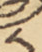༨
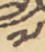༧
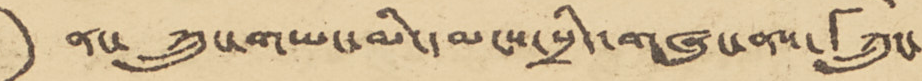ནང་ ཀྲུང་གཡང་མི་དམངས་སྲིད་གཞུང་ནས་「ཀྲུང་
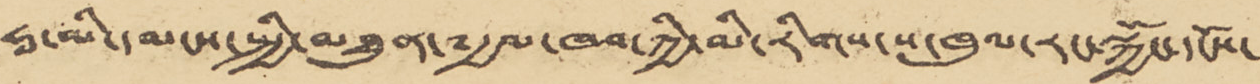ཧྭ་མི་དམངས་སྤྱི་མཐུན་༸རྒྱལ་ཁབ་ཀྱི་མི་རིགས་ས་ཁུལ་རང་སྐྱོང་དངོས་
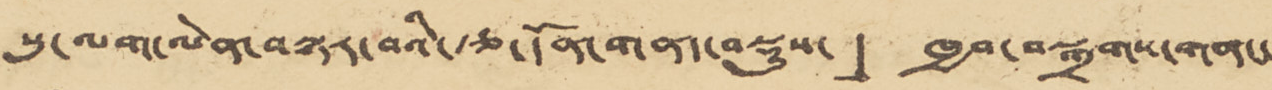སུ་ལག་ལེན་བསྟར་བའི་རྩ་དོན་གནད་བསྡུས་」 ཁྱབ་བསྒྲགས་གནང་
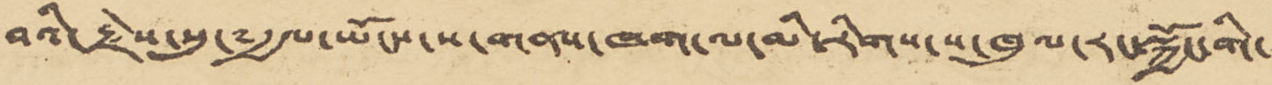བའི་རྗེས་སུ་༸རྒྱལ་ཡོངས་ས་གནས་ཁག་ལ་མི་རིགས་ས་ཁུལ་རང་སྐྱོང་གི་
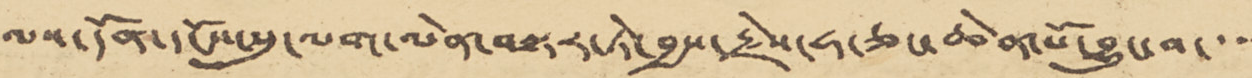ལས་དོན་དངོས་སུ་ལག་ལེན་བསྟར་ཏེ་བྱས་རྗེས་ཧ་ཅང་ཆེན་པོ་བྱུང་བ་་་་
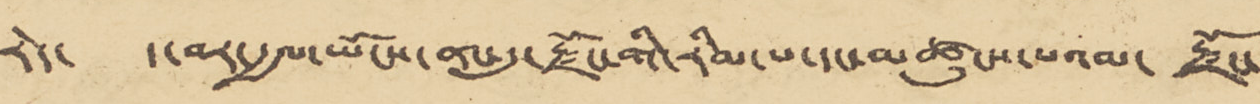རེད་ ད་བར་རྒྱལ་ཡོངས་ནང་དུ་རྫོང་གི་རིམ་པ་དང་མཚུངས་པའམ་ རྫོང་
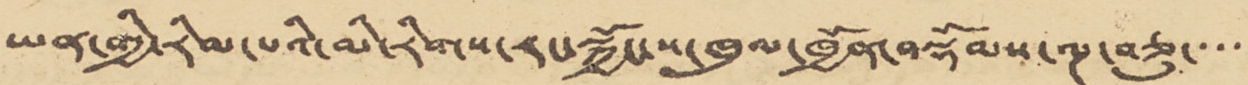ཡན་གྱི་རིམ་པའི་མི་རིགས་རང་སྐྱོང་ས་ཁུལ་ཁྱོན་བསྡོམས་ལྔ་བཅུ་་་་་
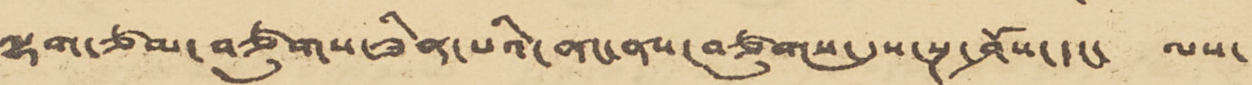ལྷག་ཙམ་བཙུགས་ཟིན་པའི་ནང་ནས་བཙུགས་དུས་སྔ་ཤོས་དང་ ལས་
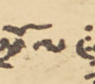སྲོལ་
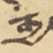རྒྱ་
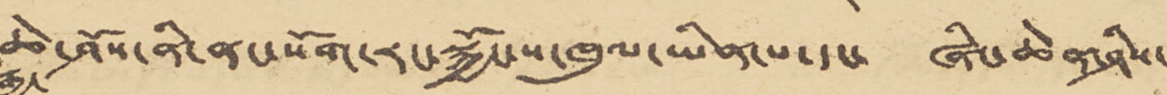ཆེ་ཤོས་ནི་ནང་སོག་རང་སྐྱོང་ས་ཁུལ་ཡིན་པ་དང་ ཞིང་ཆེན་ཤིས་
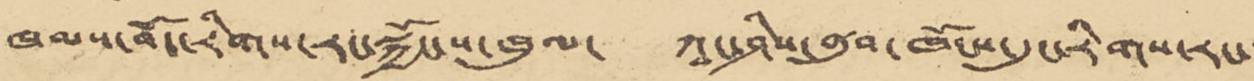ཁམས་བོད་རིགས་རང་སྐྱོང་ས་ཁུལ་ ཀཱང་ཤིས་ནུབ་ཁོངས་དུང་རིགས་རང་་
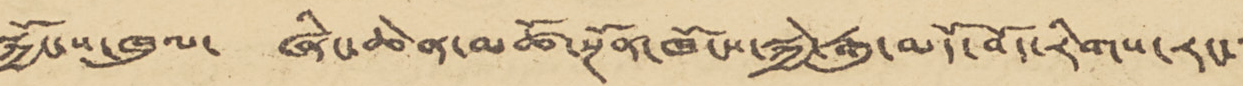སྐྱོང་ས་ཁུལ་ ཞིང་ཆེན་མཚོ་སྔོན་ཁོངས་སྐྱེ་རྒུ་མདོ་བོད་རིགས་རང་་
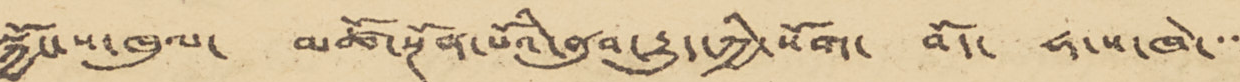སྐྱོང་ས་ཁུལ་ མཚོ་སྔོན་པོའི་ནུབ་རྒྱུད་ཀྱི་སོག་ བོད་ ཧ་ས་ཁེ་་་་
